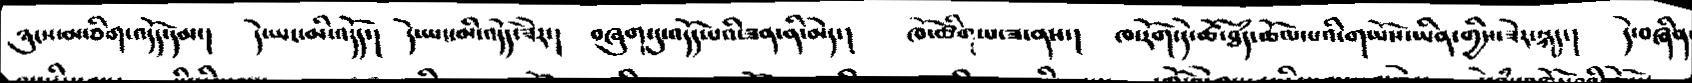ཉུངས་མ་ཅིག་འདོད་དམ་།  དེ་ཡང་མི་འདོད་།  དེ་ཡང་མི་འདོད་ཟེར་།  བཞུག་དུ་འདོད་པའི་ཟན་ནི་མེད་།  ཁོ་ཚིག་པ་ཟ་ནས་།  ཁ་རོག་དེ་ཚོ་ཐཾད་ཆོལ་བའི་གཡོས་ཡིན་གྱིས་ཟེར་སྐད་།  དེ་བཞིན་
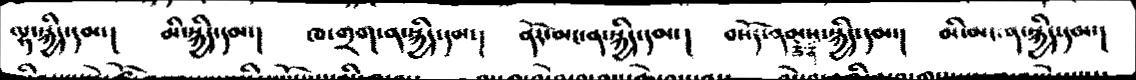ལྷ་སྐྱིད་དམ་།  མི་སྐྱེད་དམ་།  ཁ་གྲག་ན་སྐྱིད་དམ་། ནོར་མང་ན་སྐྱིད་དམ་།  བསོད་ནམས་ཅན་སྐྱིད་དམ་།  མི་མང་ན་སྐྱིད་དམ་།
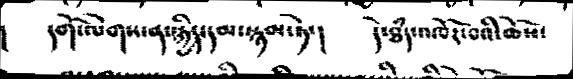།    དགོ་ལེགས་ན་སྐྱིད་དམ་སྙམ་ཏེ་།  དེ་ཐཾད་འཁོར་བའི་ཆོས་
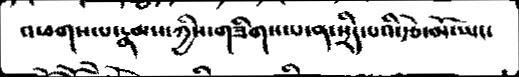འཕགས་པ་རྣམས་ཀྱིས་གཟིགས་པ་ན་སྲིད་པའི་རྩེ་མོ་ཡང་
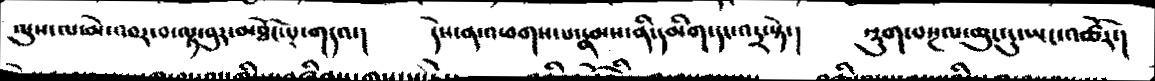ལུས་ལ་མེ་འབར་བ་ལྟ་བུར་མཐོང་པ་གདལ་།      དེས་ན་འཕགས་པ་རྣམས་ནི་དམིག་དང་འདྲ་སྟེ་།     སྡུག་བསྔལ་ཆུང་ངུ་ཡང་འཚོར་།
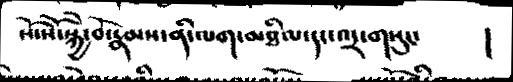སོ་སོ་སྐྱེ་བོ་རྣམས་ནི་ལག་མཐིལ་དང་འདྲ་གསུང་     །
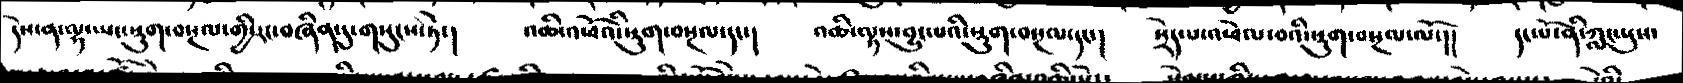དེས་ན་ལྷ་ཡང་སྡུག་བསྔལ་གྱི་རང་བཞིན་དུ་གསུངས་ཏེ་།   འཆི་འཕོའི་སྡུག་བསྔལ་དང་།    འཆི་ལྟས་བྱུང་པའི་སྡུག་བསྔལ་དང་།    སྲེད་པ་འཕེལ་བའི་སྡུག་བསྔལ་ལོ་།།     དང་པོ་ནི་ཀླང་པུས་
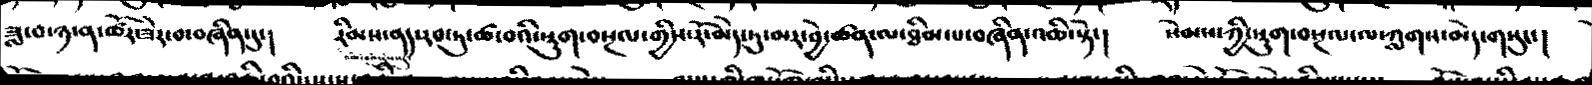ཟླ་བ་ཉ་ན་ཚོར་ཟེར་བ་བཞིན་དུ་།    རིམས་ནད་རབ་ཏུ་ཚ་བའི་སྡུག་བསྔལ་གྱིས་རོ་མེད་ཏུ་མར་བྱེ་ཚན་ལ་ཐིམ་པ་བཞིན་འཆི་སྟེ་།   སེམས་ཀྱི་སྡུག་བསྔལ་ལ་ཀླགས་མེད་གསུང་།
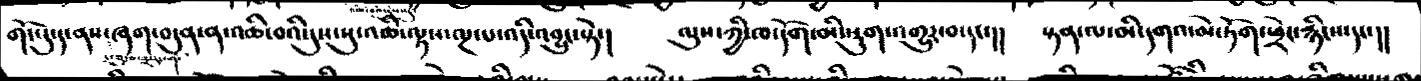གོང་དུ་ད་ནས་ཞག་བདུན་ན་འཆི་བའི་དུས་སུ་འཆི་ལྟས་ལྔ་པ་འདི་འབྱུང་སྟེ་།    ལུས་ཀྱི་ཁོག་མི་སྡུག་འགྱུར་བ་དང་།  སྟན་པ་མི་དགའ་མེ་ཏོག་ཕྲེང་རྙིངས་དང་།།
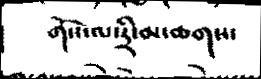གོས་ལ་དྲི་མ་ཆགས་
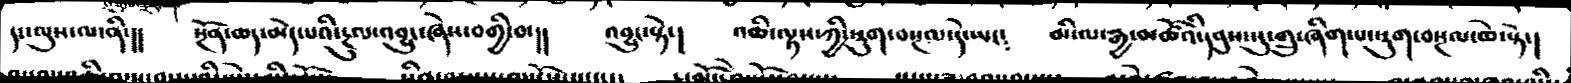དང་ལུས་ལ་ནི་།།  སྔོན་ཆད་མེད་པའི་རྔུལ་འབྱུང་ཞེས་བགྱི་བ་།།  འབྱུང་སྟེ་།  འཆི་ལྟས་ཀྱི་སྡུག་བསྔལ་དེ་ཡང༴  མི་ལ་རྒྱ་མཚོའི་དབུས་སུ་གྲུ་ཞིག་པ་སྡུག་བསྔལ་ཆེ་སྟེ་།
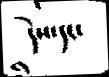དེས་དང་
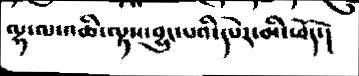ལྷ་ལ་འཆི་ལྟས་བྱུང་པའི་དཔེར་མི་ཕོད་།
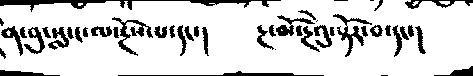ན་བུ་སླ་ང་ལ་རྔོས་པ་དང་།  རྔ་མོ་རྔེའུ་སྟོར་བ་དང་།
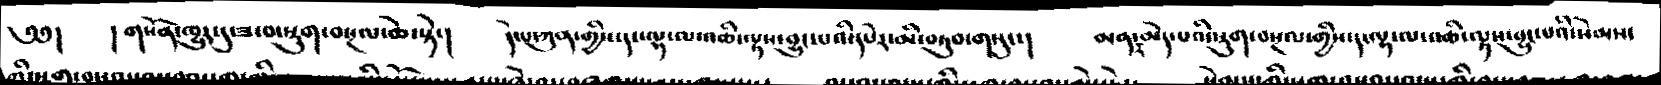༄༅།   །གསོན་ཁྱུར་དུ་ཟ་བ་སྡུག་བསྔལ་ཆེ་སྟེ་།    དེ་པ་ཀུན་གྱིས་ད་ལྟ་ལ་འཆི་ལྟས་བྱུང་པའི་དཔེར་མི་བཏུབ་གསུང་།    མནར་མེད་པའི་སྡུག་བསྔལ་གྱིས་ད་ལྟ་ལ་འཆི་ལྟས་བྱུང་པའི་སེམས་
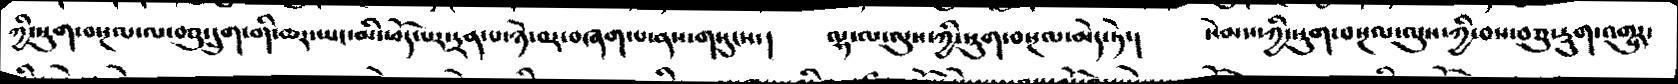ཀྱི་སྡུག་བསྔལ་ལ་བཅུ་དྲུག་གི་ཆར་ཡང་མི་ཕོད་པར་དྲན་པ་ཉེ་བར་བཞག་པ་ནས་གསུངས་།    ལྷ་ལ་ལུས་ཀྱི་སྡུག་བསྔལ་མེད་ཏེ་།   སེམས་ཀྱི་སྡུག་བསྔལ་ལུས་ཀྱི་བས་བཅུ་རུ་རྡུག་འགྱུར་
